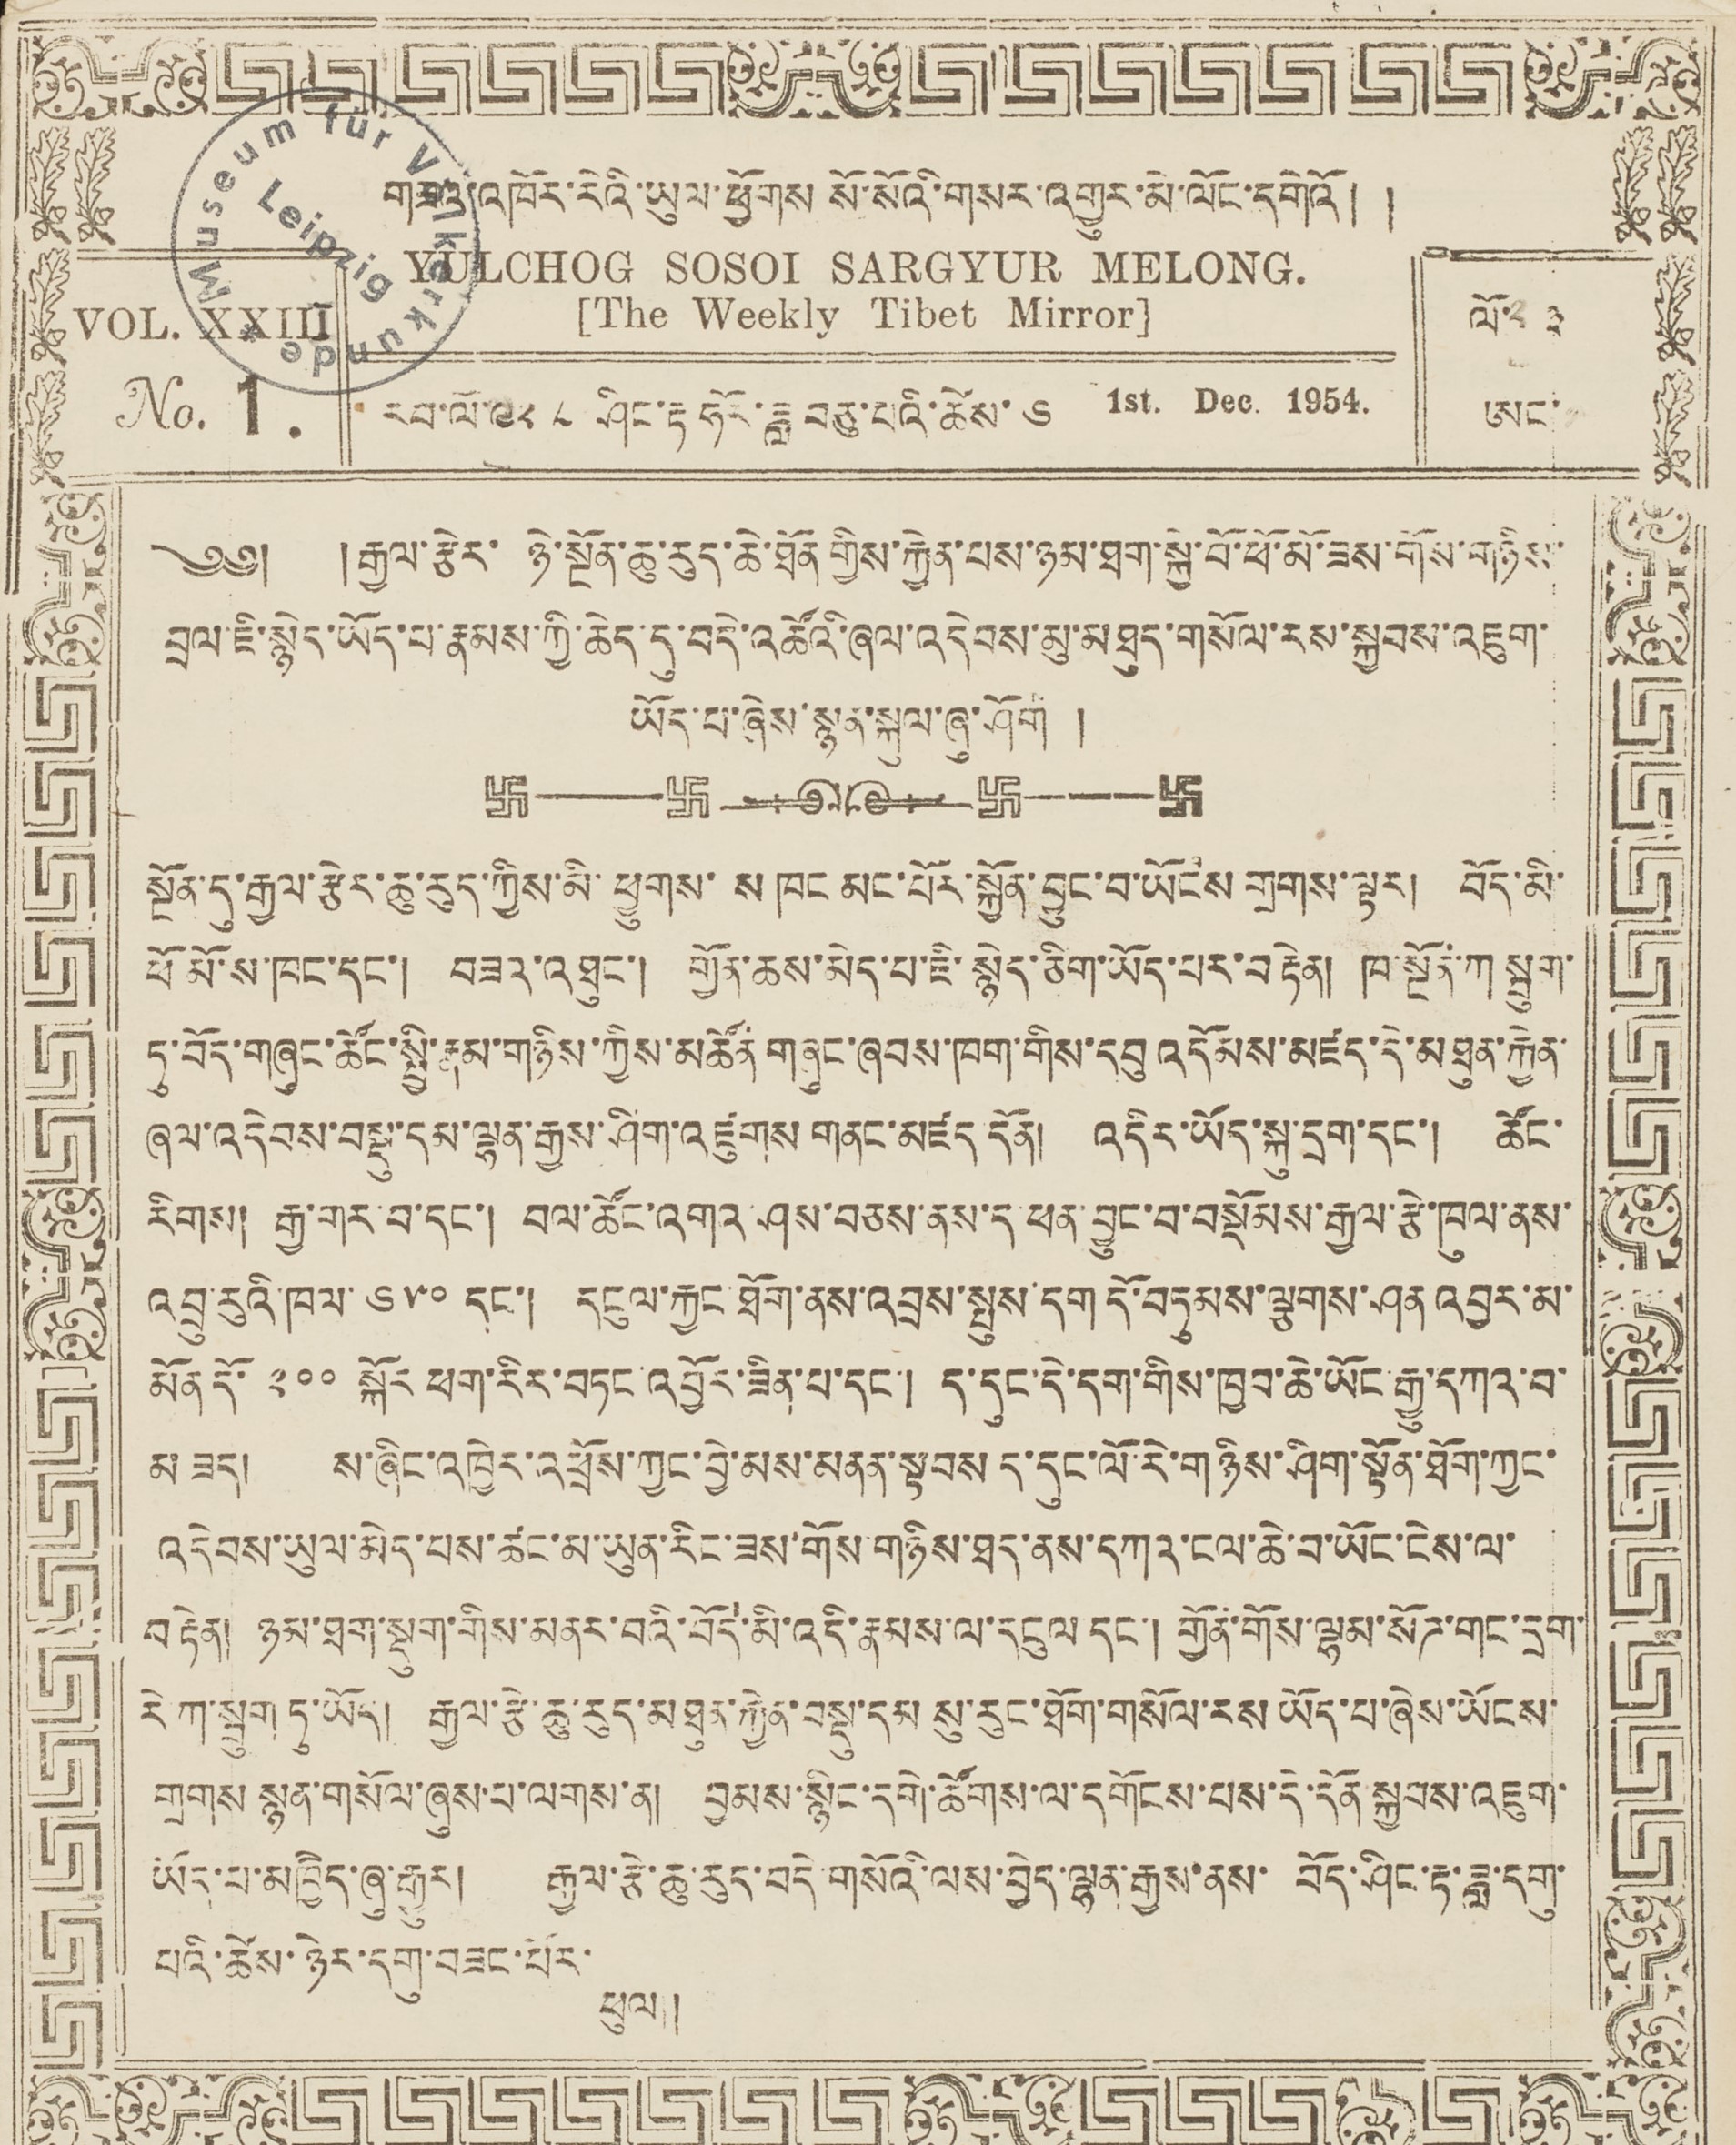གཟའ་འཁོར་རེའི་ཡུལ་ཕྱོགས སོ་སོའི་གསར་འགྱུར་མེ་ལོང་དགེའོ། །
YULCHOG SOSOI SARGYUR MELONG.
[The Weekly Tibet Mirror]
VOL. XXIII
No. 1
ལོ་༢ ༣
ཨང་
རབ་ལོ་༩༢ ༨ ཤིང་རྟ ཧོར་ཟླ བཅུ་པའི་ཚེས་ ༦ 1st. Dec. 1954
༄༅། །རྒྱལ་རྩེར་ ཉེ་སྔོན་ཆུ་རུད་ཆེ་ཐོན་གྱིས་རྐྱེན་པས་ཉམ་ཐག་སྐྱེ་བོ་ཕོ་མོ་ཟས་གོས་གཉིས་
བྲལ་ཇི་སྙེད་ཡོད་པ་རྣམས་ཀྱི་ཆེད་དུ་བདེ་འཚོའི་ཞལ་འདེབས་མུ་མཐུད་གསོལ་རས་སྐྱབས་འཇུག་
ཡོད་པ་ཞེས་སྙན་སྐལ་ཞུ་ཤོག །
སྔོན་དུ་རྒྱལ་རྩེར་ཆུ་རུད་ཀྱིས་མི་ཕྱུགས་ ས ཁང མང་པོར་སྐྱོན་བྱུང་བ་ཡོངས གྲགས་ལྟར། བོད་མི་
ཕོ་མོ་ས་ཁང་དང་། བཟའ་འཐུང་། གྱོན་ཆས་མེད་པ་ཇི་སྙེད་ཅིག་ཡོད་པར་བརྟེན། ཁ་སྔོན་ཀ སྦུག་
ཏུ་བོད་གཞུང་ཚོང་སྤྱི་རྣམ་གཉིས་ཀྱིས་མཚོན་གཞུང་ཞབས་ཁག་གིས་དབུ་འདོམས་མཛད་དེ་མཐུན་རྐྱེན་
ཞལ་འདེབས་བསྡུ་དམ་ལྷན་རྒྱས་ཤིག་འཛུགས གནང་མཛད དོན། འདིར་ཡོད་སྐུ་དྲག་དང་། ཚོང་
རིགས། རྒྱ་གར་བ་དང་། བལ་ཚོང་འགའ་ཤས་བཅས་ནས་ད་ཕན་བྱུང་བ་བསྡོམས་རྒྱལ་རྩེ་ཁུལ་ནས་
འབྲུ་རུའི་ཁལ་ ༦༥༠ དང་། དངུལ་རྐྱང་ཐོག་ནས་འབྲས་སྤུས་དག་དོ་བཏུམས་ལྕགས་ཤན འབྱར་མ་
མོན་དོ་ ༢༠༠ སྐོར ཕག་རིར་བཏང་འབྱོར་ཟིན་པ་དང་། ད་དུང་དེ་དག་གིས་ཁྱབ་ཆེ་ཡོང་རྒྱུ་དཀའ་བ་
མ ཟད། ས་ཞིང་འཁྱེར་འཕྲོས་ཀྱང་བྱེ་མས་མནན་སྟབས ད་དུང་ལོ་རེ་གཉིས་ཤིག་སྟོན་ཐོག་ཀྱང་
འདེབས་ཡུལ་མེད་པས་ཚང་མ་ཡུན་རིང་ཟས་གོས་གཉིས་ཐད་ནས་དཀའ་ངལ་ཆེ་བ་ཡོང་ངེས་ལ་
བརྟེན། ཉམ་ཐག་སྡུག་གིས་མནར་བའི་བོད་མི་འདི་རྣམས་ལ་དངུལ དང་། གྱོན་གོས་ལྷམ་སོཊ་གང་དྲག་
རེ ཀ་སྦུག ཏུ་ཡོད། རྒྱལ་རྩེ་ཆུ་རུད་མཐུན་རྐྱེན་བསྡུ་དམ སུ་རུང་ཐོག་གསོལ་རས ཡོད་པ་ཞེས་ཡོངས
གྲགས སྙན་གསོལ་ཞུས་པ་ལགས་ན། བྱམས་སྙིང་དགེ་ཚོགས་ལ་དགོངས་པས་དེ་དོན་སྐྱབས་འཇུག་
ཡོད་པ་མཁྱཻད་ཞུ་རྒྱུར། རྒྱལ་རྩེ་ཆུ་རུད་བདེ་གསོའི་ལས་བྱེད་ལྷན་རྒྱས་ནས་ བོད་ཤིང་རྟ་ཟླ་དགུ་
པའི་ཚེས་ཉེར་དགུ་བཟང་པོར་
ཕུལ།།
